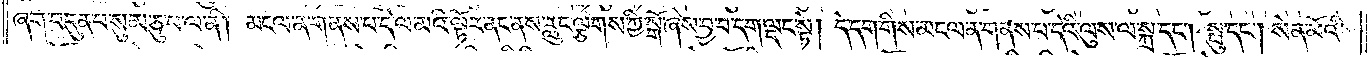ཞག་བདུན་པ་སུམ་ཅུ་པ་ལ་ནི། མངལ་ན་གནས་པ་དེ་ལ་མའི་ལྟོར་ནང་ནས་རླུང་ལྕགས་ཀྱི་སྒོ་ཞེས་བྱ་བ་དག་ལྡང་སྟེ། དེ་དག་གིས་མངལ་ན་གནས་པ་དེའི་ལུས་ལ་སྐྲ་དང༌། སྤུ་དང༌། སེན་མོའི་
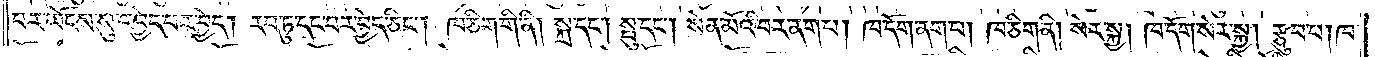བར་ཡོངས་སུ་འབྱེད་པར་བྱེད། རབ་ཏུ་དང་བར་བྱེད་ཅིང༌། ཁ་ཅིག་གི་ནི། སྐྲ་དང༌། སྤུ་དང༌། སེན་མོའི་བར་ནག་པ། ཁ་དོག་ནག་པ། ཁ་ཅིག་ནི། སེར་སྐྱ། ཁ་དོག་སེར་སྐྱ། རྩུབ་པ། ཁ་
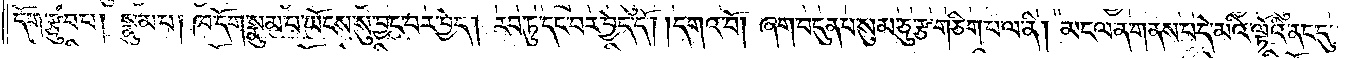དོག་རྩུབ་པ། སྣུམ་པ། ཁ་དོག་སྣུམ་པ་ཡོངས་སུ་བྱང་བར་བྱེད། རབ་ཏུ་དང་བར་བྱེད་དོ། །དགའ་བོ། ཞག་བདུན་པ་སུམ་ཅུ་རྩ་གཅིག་པ་ལ་ནི། མངལ་ན་གནས་པ་དེ་མའི་ལྟོའི་ནང་དུ་
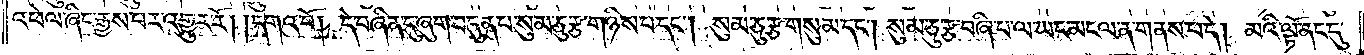འཕེལ་ཞིང་རྒྱས་པར་འགྱུར་རོ། །དགའ་བོ། དེ་བཞིན་དུ་ཞག་བདུན་པ་སུམ་ཅུ་རྩ་གཉིས་པ་དང༌། སུམ་ཅུ་རྩ་གསུམ་དང༌། སུམ་ཅུ་རྩ་བཞི་པ་ལ་ཡང་མངལ་ན་གནས་པ་དེ། མའི་ལྟོ་ནང་དུ་
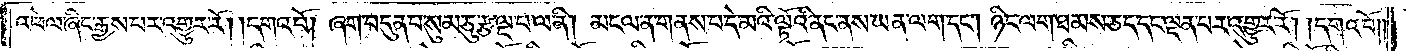འཕེལ་ཞིང་རྒྱས་པར་འགྱུར་རོ། །དགའ་བོ། ཞག་བདུན་པ་སུམ་ཅུ་རྩ་ལྔ་པ་ལ་ནི། མངལ་ན་གནས་པ་དེ་མའི་ལྟོའི་ནང་ནས་ཡན་ལག་དང༌། ཉིང་ལག་ཐམས་ཅད་དང་ལྡན་པར་འགྱུར་རོ། །དགའ་བོ།
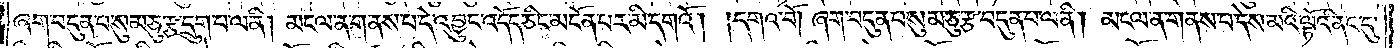ཞག་བདུན་པ་སུམ་ཅུ་རྩ་དྲུག་པ་ལ་ནི། མངལ་ན་གནས་པ་དེ་འབྱུང་འདོད་ཅིང་མངོན་པར་མི་དགའོ། །དགའ་བོ། ཞག་བདུན་པ་སུམ་ཅུ་རྩ་བདུན་པ་ལ་ནི། མངལ་ན་གནས་པ་དེས་མའི་ལྟོའི་ནང་དུ་
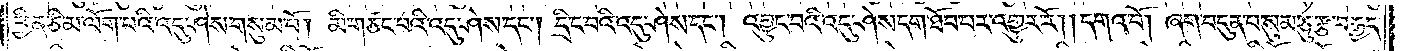ཕྱིན་ཅི་མ་ལོག་པའི་འདུ་ཤེས་གསུམ་པོ། མི་གཙང་བའི་འདུ་ཤེས་དང༌། དྲི་ང་བའི་འདུ་ཤེས་དང༌། འབྱུང་བའི་འདུ་ཤེས་དག་ཐོབ་པར་འགྱུར་རོ། །དགའ་བོ། ཞག་བདུན་པ་སུམ་ཅུ་རྩ་བརྒྱད་
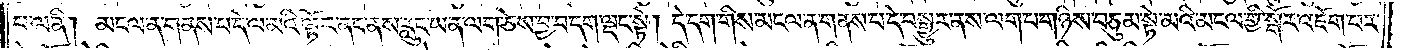པ་ལ་ནི། མངལ་ན་གནས་པ་དེ་ལ་མའི་ལྟོར་ནང་ནས་རླུང་ཡན་ལག་ཅེས་བྱ་བ་དག་ལྡང་སྟེ། དེ་དག་གིས་མངལ་ན་གནས་པ་དེ་བསྒྱུར་ནས་ལག་པ་གཉིས་བཅུམ་སྟེ་མའི་མངལ་གྱི་སྒོར་འཇོག་པར་
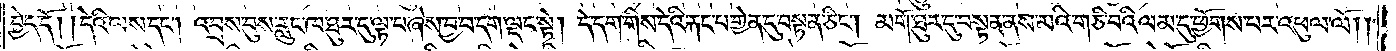བྱེད་དོ། །དེའི་ལས་དང༌། འབྲས་བུས་རླུང་ཁ་ཐུར་དུ་ལྟ་བ་ཞེས་བྱ་བ་དག་ལྡང་སྟེ། དེ་དག་གིས་དེའི་རྐང་པ་གྱེན་དུ་བསྟན་ཅིང༌། མགོ་ཐུར་དུ་བསྟན་ནས་མའི་གཅི་བའི་ལམ་དུ་ཕྱོགས་པར་འཕུལ་ལོ༎
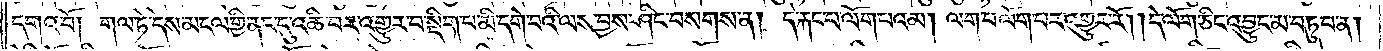དགའ་བོ། གལ་ཏེ་དེས་མངལ་གྱི་ནང་དུ་འཆི་བར་འགྱུར་བ་སྡིག་པ་མི་དགེ་བའི་ལས་བྱས་ཤིང་བསགས་ན། དེ་རྐང་པ་ལོག་པའམ། ལག་པ་གཡོག་པར་འགྱུར་རོ། །དེ་ལོག་ཅིང་འབྱུང་མ་བཏུབ་ན།
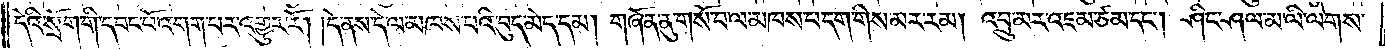དེའི་སྲོག་གི་དབང་པོ་འགག་པར་འགྱུར་རོ། །དེ་ནས་དེ་ལ་མཁས་པའི་བུད་མེད་དམ། གཞོན་ནུ་གསོ་བ་ལ་མཁས་པ་དག་གིས་མར་རམ། འབྲུ་མར་འཇམ་ཙམ་དང༌། ཤིང་ཤལ་མ་ལི་ལེགས་
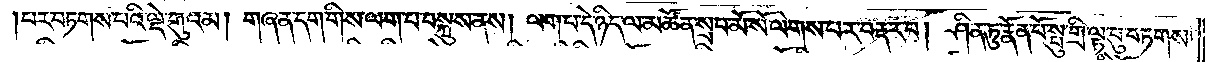པར་བཏགས་པའི་ལྡེ་གུའམ། གཞན་དག་གིས་ལག་པ་བསྐུས་ནས། ལག་པ་དེ་ཉིད་ལ་མཚོན་སྲབ་མོ་སོ་ལེགས་པར་བརྡར་བ། ཤིན་ཏུ་རྣོན་པོ་སྤུ་གྲི་ལྟ་བུ་བཏགས་
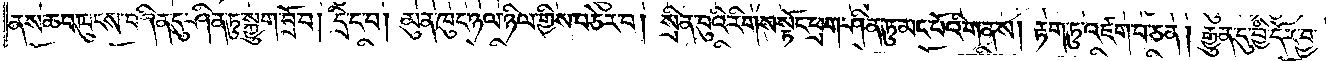ནས་ཆབ་ཁུངས་བཞིན་དུ་ཤིན་ཏུ་སྐྱུག་བྲོ་བ། དྲི་ང་བ། མུན་ཁུང་ཉལ་ཉིལ་གྱིས་བཅེར་བ། སྲིན་བུའི་རིགས་སྟོང་ཕྲག་ཤིན་ཏུ་མང་པོའི་གནས། རྟག་ཏུ་འཛག་པ་ཅན། རྒྱུན་དུ་བྱི་དོར་བྱ་
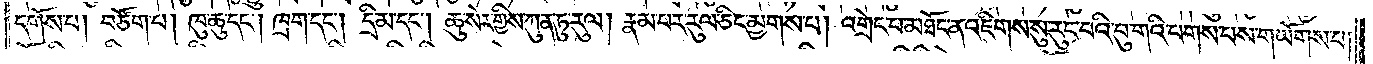དགོས་པ། བཙོག་པ། ཁུ་ཆུ་དང༌། ཁྲག་དང༌། དྲི་མ་དང༌། ཆུ་སེར་གྱིས་ཀུན་ཏུ་རུལ། རྣམ་པར་རུལ་ཅིང་མྱགས་པ། འགྲེང་བ་མཐོང་ན་འཇིགས་སུ་རུང་བའི་བུ་གའི་པགས་པས་གཡོགས་པ།
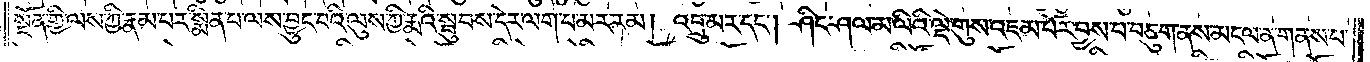སྔོན་གྱི་ལས་ཀྱི་རྣམ་པར་སྨིན་པ་ལས་བྱུང་བའི་ལུས་ཀྱི་རྨའི་སྦུབས་དེར་ལག་པ་མར་རམ། འབྲུ་མར་དང༌། ཤིང་ཤལ་མ་ལིའི་ལྡེ་གུས་འཇམ་པོར་བྱས་པ་བཅུག་ནས་མངལ་ན་གནས་པ་
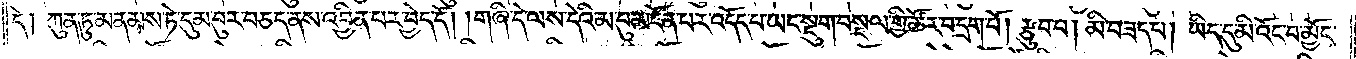དེ། ཀུན་ཏུ་མནམས་ཏེ་དུམ་བུར་བཅད་ནས་འབྱིན་པར་བྱེད་དོ། །གཞི་དེ་ལས་དེའི་མ་བུ་མངོན་པར་འདོད་པ་ཡང་སྡུག་བསྔལ་གྱི་ཚོར་བ་དྲག་པོ། རྩུབ་པ། མི་བཟད་པ། ཡིད་དུ་མི་འོང་བར་མྱོང་
